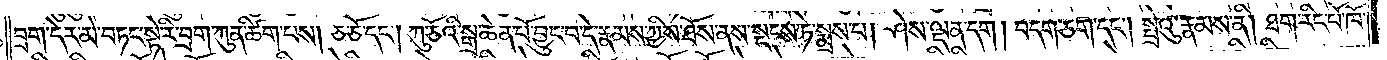བྲག་དེར་མེ་བཏང་སྟེ་རི་བྲག་ཀུན་ཚིག་པས། ཅ་ཅོ་དང༌། ཀུ་ཅོའི་སྒྲ་ཆེན་པོ་བྱུང་བ་དེ་རྣམས་ཀྱིས་ཐོས་ནས་སྡངས་ཏེ་སྨྲས་པ། ཤེས་ལྡན་དག །བདག་ཅག་དང༌། སྤྲེའུ་རྣམས་ནི། ཐག་རིང་པོ་ཁོ་
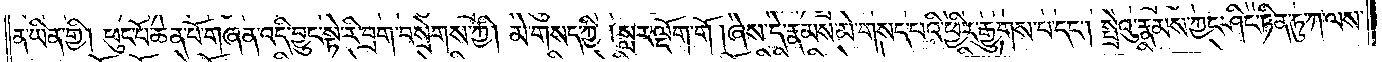ན་ཡིན་གྱི། ཕུང་པོ་ཆེན་པོ་གཞན་འདི་བྱུང་སྟེ་རི་བྲག་བསྲེགས་ཀྱི། མེ་གསད་ཀྱི། སླར་ལྡོག་གོ །ཞེས་དེ་རྣམས་མེ་གསད་པའི་ཕྱིར་རྒྱུགས་པ་དང༌། སྤྲེའུ་རྣམས་ཀྱང་ཤིང་ཏིན་ཏུ་ཀ་ལས་
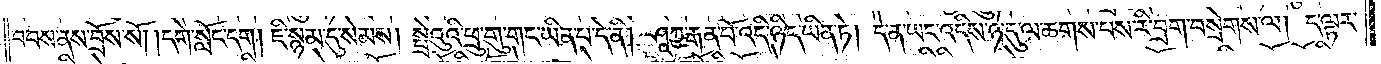བབས་ནས་བྲོས་སོ། །དགེ་སློང་དག །ཇི་སྙམ་དུ་སེམས། སྤྲེའུའི་ཕྲུ་གུ་གང་ཡིན་པ་དེ་ནི། ཤཱཀྱ་རྒན་པོ་འདི་ཉིད་ཡིན་ཏེ། དེ་ན་ཡང་འདིས་ཉེ་དུ་ལ་ཆགས་པས་རི་བྲག་བསྲེགས་ལ། ད་ལྟར་
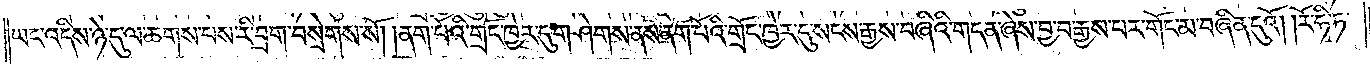ཡང་འདིས་ཉེ་དུ་ལ་ཆགས་པས་རི་བྲག་བསྲེགས་སོ། །ནག་པོའི་གྲོང་ཁྱེར་དུ་གཤེགས་ནས་ནག་པོའི་གྲོང་ཁྱེར་དུ་སངས་རྒྱས་བཞིའི་གདན་ཞེས་བྱ་བ་རྒྱས་པར་གོང་མ་བཞིན་དུའོ། །རོ་ཧི་ཏ་
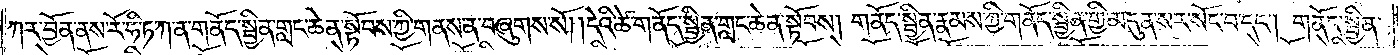ཀར་བྱོན་ནས་རོ་ཧི་ཏ་ཀ་ན་གནོད་སྦྱིན་གླང་ཆེན་སྟོབས་ཀྱི་གནས་ན་བཞུགས་སོ། །དེའི་ཚེ་གནོད་སྦྱིན་གླང་ཆེན་སྟོབས། གནོད་སྦྱིན་རྣམས་ཀྱི་གནོད་སྦྱིན་གྱི་མདུན་སར་སོང་བ་དང༌། གནོད་སྦྱིན་
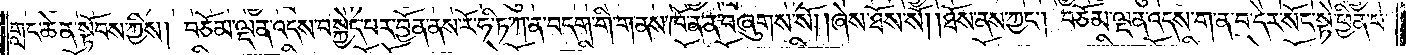གླང་ཆེན་སྟོབས་ཀྱིས། བཅོམ་ལྡན་འདས་བསྐྱེད་པར་བྱོན་ནས་རོ་ཧི་ཏ་ཀ་ན་བདག་གི་གནས་ཁོ་ན་ན་བཞུགས་སོ། །ཞེས་ཐོས་སོ། །ཐོས་ནས་ཀྱང༌། བཅོམ་ལྡན་འདས་ག་ན་བ་དེར་སོང་སྟེ་ཕྱིན་པ་
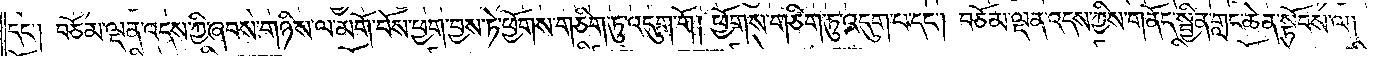དང༌། བཅོམ་ལྡན་འདས་ཀྱི་ཞབས་གཉིས་ལ་མགོ་བོས་ཕྱག་བྱས་ཏེ་ཕྱོགས་གཅིག་ཏུ་འདུག་གོ། ཕྱོགས་གཅིག་ཏུ་འདུག་པ་དང༌། བཅོམ་ལྡན་འདས་ཀྱིས་གནོད་སྦྱིན་གླང་ཆེན་སྟོབས་ལ།
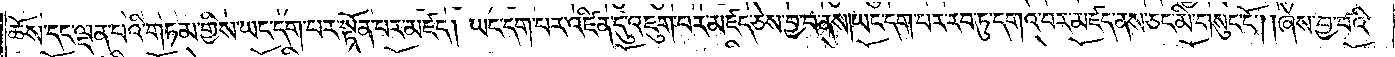ཆོས་དང་ལྡན་པའི་གཏམ་གྱིས་ཡང་དག་པར་སྟོན་པར་མཛད། ཡང་དག་པར་འཛིན་དུ་འཇུག་པར་མཛད་ཅེས་བྱ་བ་ནས།ཡང་དག་པར་རབ་ཏུ་དགའ་བར་མཛད་ནས་ཅང་མི་གསུང་ངོ༌། །ཞེས་བྱ་བའི་
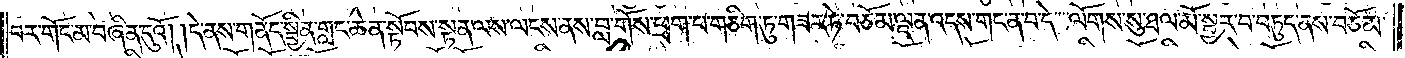བར་གོང་མ་བཞིན་དུའོ། །དེ་ནས་གནོད་སྦྱིན་གླང་ཆེན་སྟོབས་སྟན་ལས་ལངས་ནས་བླ་གོས་ཕྲག་པ་གཅིག་ཏུ་གཟར་ཏེ་བཅོམ་ལྡན་འདས་གང་ན་བ་དེ་ལོགས་སུ་ཐལ་མོ་སྦྱར་བ་བཏུད་ནས་བཅོམ་
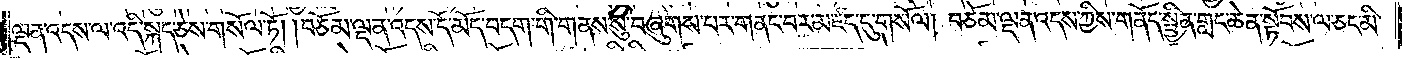ལྡན་འདས་ལ་འདི་སྐད་ཅེས་གསོལ་ཏོ། །བཅོམ་ལྡན་འདས་དོ་མོད་བདག་གི་གནས་སུ་བཞུགས་པར་གནང་བར་མཛད་དུ་གསོལ། །བཅོམ་ལྡན་འདས་ཀྱིས་གནོད་སྦྱིན་གླང་ཆེན་སྟོབས་ལ་ཅང་མི་
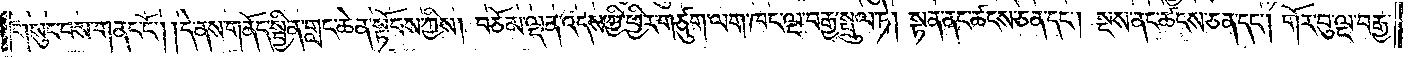གསུང་བས་གནང་ངོ༌། །དེ་ནས་གནོད་སྦྱིན་གླང་ཆེན་སྟོབས་ཀྱིས། བཅོམ་ལྡན་འདས་ཀྱི་ཕྱིར་གཙུག་ལག་ཁང་ལྔ་བརྒྱ་སྤྲུལ་ཏེ། སྟན་ནང་ཚངས་ཅན་དང༌། སྔས་ནང་ཚངས་ཅན་དང༌། གོར་བུ་ལྔ་བརྒྱ་
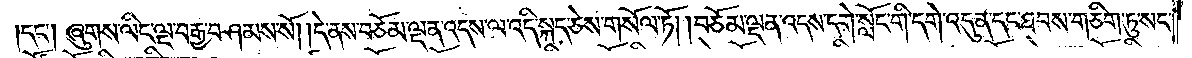དང༌། ཞུགས་ལིང་ལྔ་བརྒྱ་བཤམས་སོ། །དེ་ནས་བཅོམ་ལྡན་འདས་ལ་འདི་སྐད་ཅེས་གསོལ་ཏོ། །བཅོམ་ལྡན་འདས་དགེ་སློང་གི་དགེ་འདུན་ཐབས་གཅིག་ཏུ་སང་
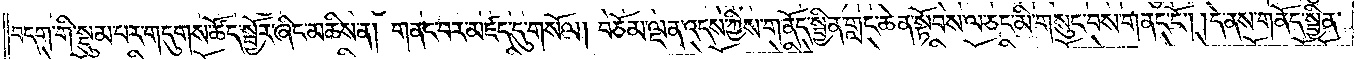བདག་གི་སྡུམ་པར་གདུགས་ཚོད་སྦྱོར་ཞིང་མཆིས་ན། གནང་བར་མཛད་དུ་གསོལ། །བཅོམ་ལྡན་འདས་ཀྱིས་གནོད་སྦྱིན་གླང་ཆེན་སྟོབས་ལ་ཅང་མི་གསུང་བས་གནང་ངོ༌། །དེ་ནས་གནོད་སྦྱིན་
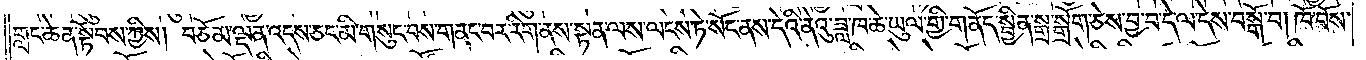གླང་ཆེན་སྟོབས་ཀྱིས། བཅོམ་ལྡན་འདས་ཅང་མི་གསུང་བས་གནང་བར་རིག་ནས་སྟན་ལས་ལངས་ཏེ་སོང་ནས་དེའི་ནེའུ་ཟླ་ཁ་ཆེ་ཡུལ་གྱི་གནོད་སྦྱིན་སྒྲ་སྒྲོག་ཅེས་བྱ་བ་དེ་ལ་དེས་བསྒོ་བ། ཁོ་བོས་
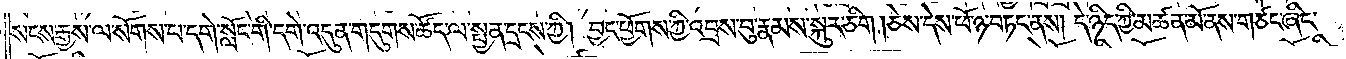སངས་རྒྱས་ལ་སོགས་པ་དགེ་སློང་གི་དགེ་འདུན་གདུགས་ཚོད་ལ་སྤྱན་དྲངས་ཀྱི། བྱང་ཕྱོགས་ཀྱི་འབྲས་བུ་རྣམས་སྐུར་ཅིག །ཅེས་དེས་ཕོ་ཉ་བཏང་ནས། དེ་ཉིད་ཀྱི་མཚན་མོ་ནས་གཙང་ཞིང་
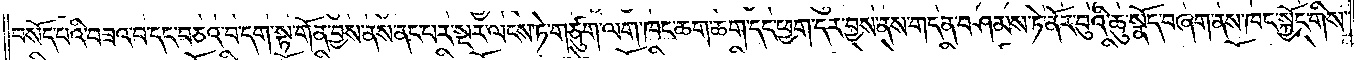བསོད་པའི་བཟའ་བ་དང་བཅའ་བ་དག་སྟ་གོན་བྱས་ནས་ནང་པར་སྔར་ལངས་ཏེ་གཙུག་ལག་ཁང་ཆག་ཆག་དང་ཕྱག་དར་བྱས་ནས་གདན་བཤམས་ཏེ་ནོར་བུའི་ཆུ་སྣོད་བཞག་ནས་ཁང་སྐྱོང་གིས་
